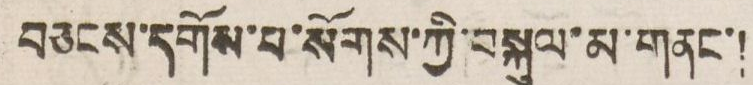བཅངས་དགོས་པ་སོགས་ཀྱི་བསྐུལ་མ་གནང་།
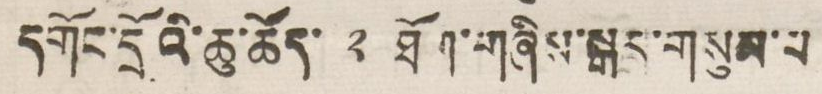དགོང་དྲོའི་ཆུ་ཚོད་ ༢ ཐོག་གཞིས་སྒར་གསུམ་པ
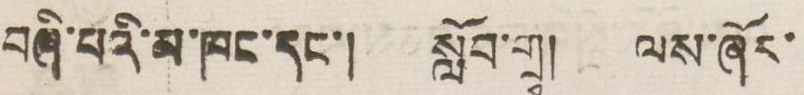བཞི་པའི་མ་ཁང་དང་། སློབ་གྲྭ། ལས་ཞོར་
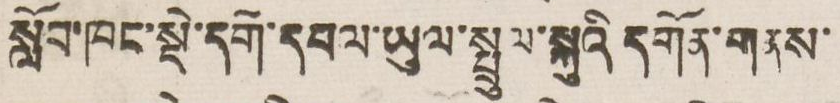སློབ་ཁང་སྡེ་དགེ་དཔལ་ཡུལ་སྤྲུལ་སྐུའི་དགོན་གནས་
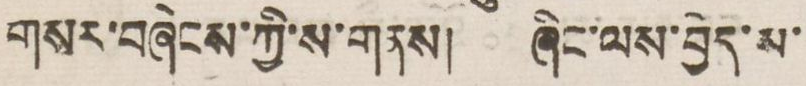གསར་བཞེངས་ཀྱི་ས་གནས། ཞིང་ལས་བྱེད་པ་
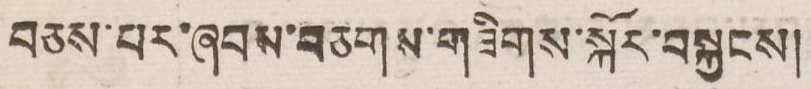བཅས་པར་ཞབས་བཅགས་གཟིགས་སྐོར་བསྐྱངས།
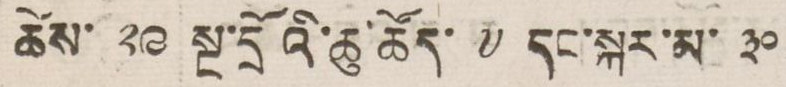ཚེས ༢༩ སྔ་དྲོའི་ཆུ་ཚོད་ ༧ དང་སྐད་མ་ ༣༠
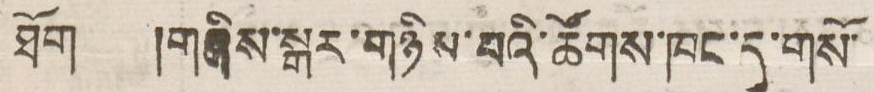ཐོག །གཞིས་སྒར་གཉིས་པའི་ཚོགས་ཁང་དུ་གསོ་
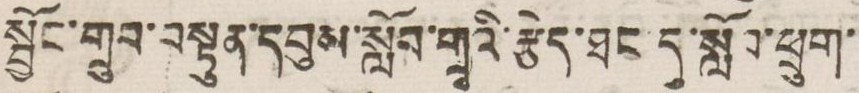སྦྱོང་སྒྲུབ་བསྟུན་དབུས་སློབ་གྲྭའུ་རྩེད་ཐང དུ་སློབ་ཕྲུག་
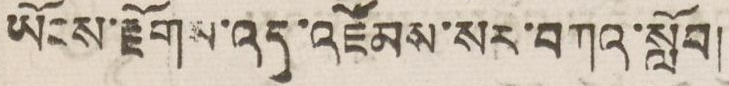ཡོངས་རྫོགས་འདུ་འཛོམས་སར་བཀའ་སློབ།
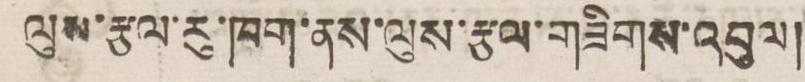ལུས་རྩལ་རུ་ཁག་ནས་ལུས་རྩལ་གཟིགས་འབུལ།
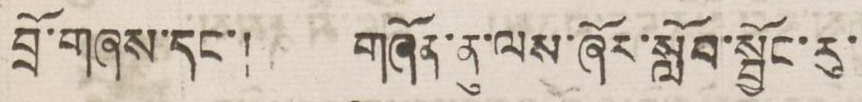བྲོ་གཞས་དང་། གཞོན་ནུ་ལས་ཞོར་སློབ་སྦྱོང་རུ་
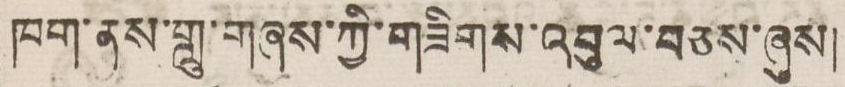ཁག་ནས་གླུ་གཞས་ཀྱི་གཟིགས་འབུལ་བཅས་ཞུས།
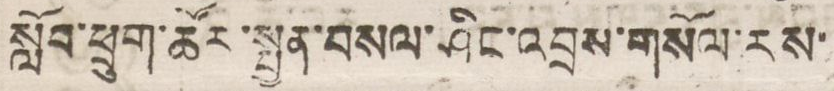སློབ་ཕྲུག་ཚོར་སྤྱན་གསལ་ཤིང་འབྲས་གསོལ་རས་
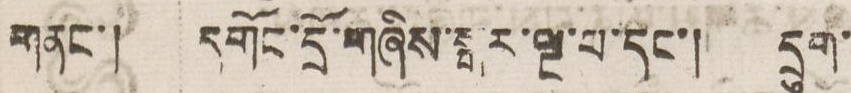གནང་། དགོང་དྲོ་གཞིས་སྒར་ལྔ་པ་དང་། དྲུག་
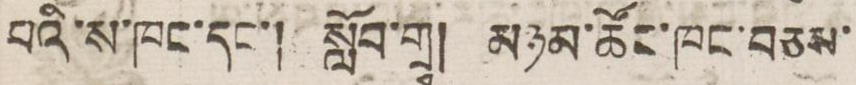པའི་ས་ཁང་དང་། སློབ་གྲྭ། མཉམ་ཚོང་ཁང་བཅས་
